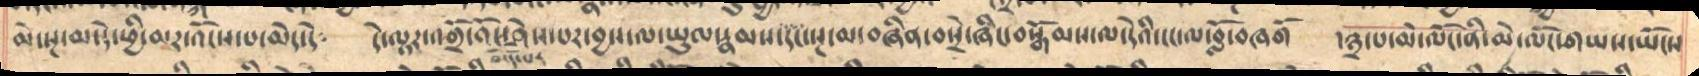མེ་སྔ་མ་དེ་ཕྱི་མར་འོངས་པ་མེད་དོ༴   དེ་ལྟར་འགྲོ་འོང་ཤེས་པར་བྱས་ལ་ཡུལ་རྣམས་དང་སྔ་མ་བཞིན་བསྲེ་ཞིང་བསྒོམས་ལ་དེའི་ངང་ལ་བློ་བཞགོ   །༣་པ་མེ་ལོང་ནི་མེ་ལོང་གཡས་ཡོངས
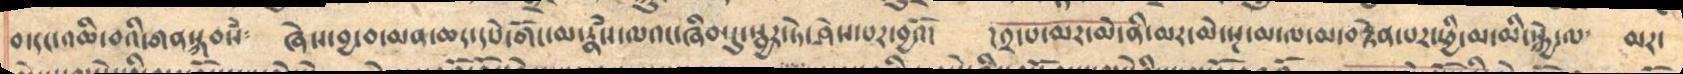བ་དང་འཆི་བའི་གནསྐབས༴ ཞེས་བྱ་བ་མན་ཆད་དཔེ་གོང་མ་རྣཾས་ལའང་ཞིབ་དུ་སྦྱར་ཏེ་ཤེས་པར་བྱའོ། །༢་པ་མར་མེ་ནི་སྔ་མ་ལ་མ་བརྟེན་པར་ཕྱི་མ་མི་སྐྱེ་ལ མར་
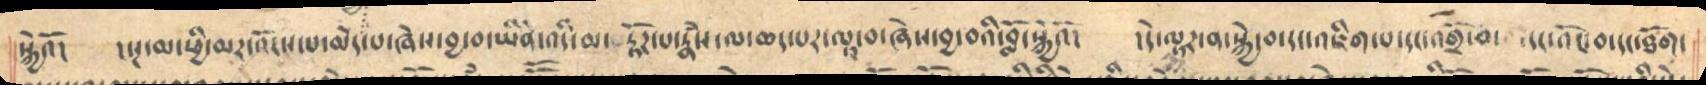སྐྱེའོ། །སྔ་མ་ཕྱི་མར་འོངས་པ་མེད་པ་ཞེས་བྱ་བ་ཡིན་འདི་མ་ རྟོཌ་པ་རྣཾས་ལ་ཆད་པར་ལྟ་བ་ཞེས་བྱ་བའི་བློ་སྐྱེའོ། །དེ་ལྟར་ན་སྐྱེ་བ་དང་འཇིག་པ་དང་འགྲོ་བ་ དང་འོང་བ་དང་ཐོག་
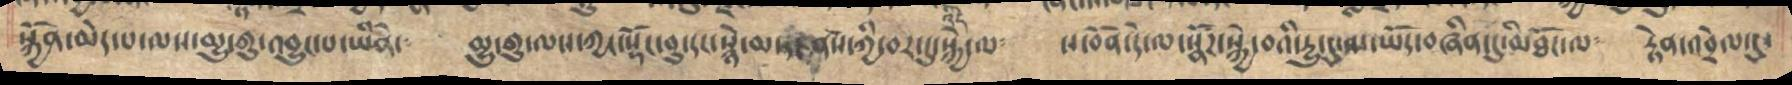སྐྱོན་མེད་པ་ལས་མྱུ་གུ་འབྱུང་བ་ཡིནོ།  མྱུ་གུ་ལས་ཀྱང་སྡོང་བུ་དང་སྙེ་མ་ནས་ཀྱི་བར་དུ་སྐྱེད་ལ༴   ས་བོན་དེ་ལ་སྣོར་སྐྱེ་བའི་དྱུ་དུ་མ་ཡོད་བཞིན་དུ་མིཐོང་ལ༴  རྟེན་འབྲེལ་དུ་
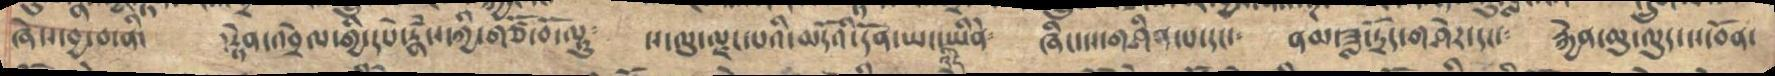ཞེས་བྱ་བ་ནི་   །རྟེན་འབྲེལ་གྱི་དཔེ་རྣཾས་ཀྱི་གཙོ་བོ་ལྟུ༴   ས་ལུ་ལྗང་པའི་མདོའི་དོན་ཏང་ཡིནེ༴   ཞིང་ས་གཤིན་པ་དང༴  ནམ་ཟླ་དྲོད་གཤེར་དང༴   རྐྱེན་ཆུ་ལུད་ས་བོན་
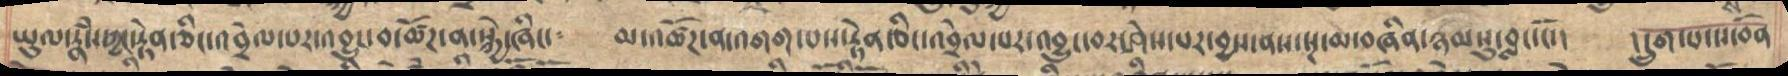ཡུལ་རྣཾས་ཀྱང་རྟེན་ཅིང་འབྲེལ་པར་འབྱུང་བ་ཚོཌ་ན་སྐྱེ་ཞིང་    མ་འཚོཌ་ན་འགག་པས་རྟེན་ཅིང་འབྲེལ་པར་འབྱུང་བར་ཤེས་པར་བྱས་ནས་སྔ་མ་བཞིན་ཉམསུ་བླང་ངོ་།   །དྲུག་པ་ས་བོན
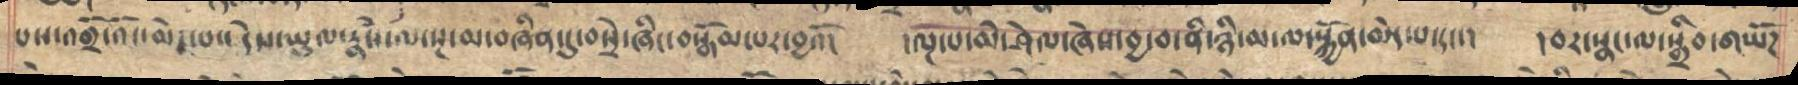པས་འགྲོ་འོང་མེད་པས་དེས་ཡུལ་རྣཾས་ལ་སྔ་མ་བཞིན་དུ་བསྲེ་ཞིང་བསྒོམ་པར་བྱའོ། །ལྔ་པ་མེ་ཤེལ་ཞེས་བྱ་བ་ནི་ཉི་མ་ལ་སྐྱོན་མེད་པ་དང་། །བར་སྣང་ལ་སྒྲིབ་གཡོཌ
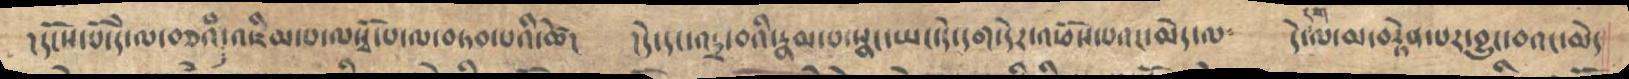།དངོས་པོ་དེ་ལ་བཅུའི་འཇིམ་པ་ལསྭོ་པ་ལ་བཏབ་པའི་ཚེ།   །དེ་དང་འདྲ་བའི་རྣམ་པ་སྣང་ཡང་དེ་དག་དེར་འཕོས་པའང་མེད་ལ༴   དེ་ལ་མ་བརྟེན་པར་བྱུང་བའང་མེད
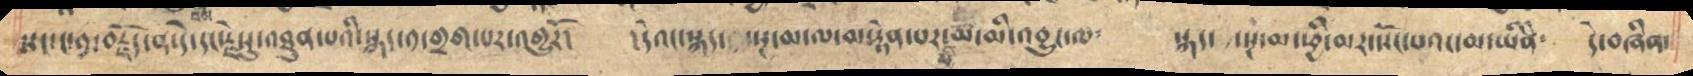སང་ང་༡་བརྗོད་ན་དེ་དང་རྗེས་འཐུན་པའི་སྐད་༡་གྲག་པར་འགྱུར།    །དེའང་སྐད་   སྔ་མ་ལ་མ་རྟེན་པར་མ་མི་འབྱུང་ལ༴   སྐད་   ་སྔ་མ་ཕྱི་མར་སོང་པའང་མ་ཡིནེ༴   དེ་བཞིན་
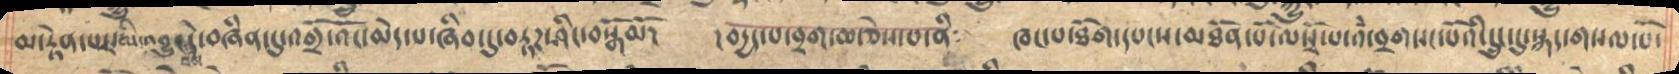མ་རྟེན་པར་མི་འབྱུང་བས་དེ་བཞིན་དུ་འགྲོ་འོང་མེད་པ་ཞིབ་དུ་བརྟར་ཤིང་བསྒོམ།     ། བདྱད་པ་བྲག་མ་ཅེས་པ་ནི༴   ཁང་པ་ཐོག་དཔངས་མཐོན་པོ་ལསྭོ་པ་འཾ་བྲག་དང་པོའི་དྲུང་དུ་སྐད་གསལ་པོ་
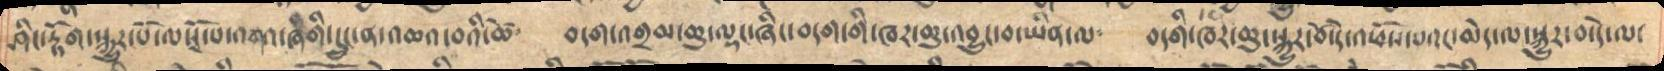ཤིང་རྟོག་སྐྱུར་པོ་ལསྭོ་པ་འགའ་ཞིགི་དྲུང་ན་འཆའ་བའི་ཚེ༴   བདག་འགྲམ་ཆུ་ལྡང་ཞིང་བདག་གི་ཁར་ཆུ་འབྱུང་བ་ཡིན་ལ༴  བདགི་ཁར་ཆུ་སྐྱུར་བོ་དེ་འཕོས་པའང་མེད་ལ་སྐྱུར་བ་དེ་ལ་
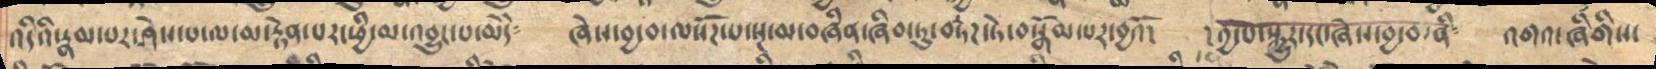འདིའི་རྣམ་པར་ཤེས་པ་ལ་མ་རྟེན་པར་ཕྱི་མ་འབྱུང་པ་མེདོ༴  ཞེས་བྱ་བ་ལསོཌ་པ་སྔ་མ་བཞིན་ཞིབ་ཏུ་བརྟཌ་ཏེ་བསྒོམ་པར་བྱའོ།  །བྱ་པསྐྱུར་དང་ཞེས་བྱ་བ་ནི༴  འགའ་ཞིགིས་
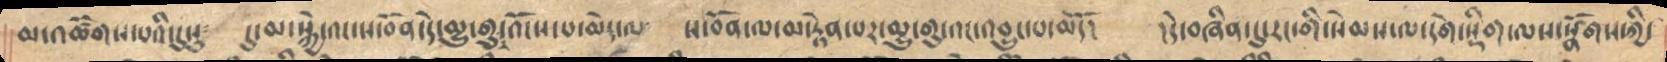མ་འཚོགས་པོ་དུསུ༴   དུ་མ་སྐྱེ་འང་ས་བོན་དེ་མྱུ་གུ་འོངས་པ་མེད་ལ༴   ས་བོན་ལ་མ་རྟེན་པར་མྱུ་གུ་འང་འབྱུང་པ་མོད།   །  དེ་བཞིན་དུ་རང་གི་སེམས་ལ་དགེ་སྡིག་ལས་སྣོགས་ཀྱི་
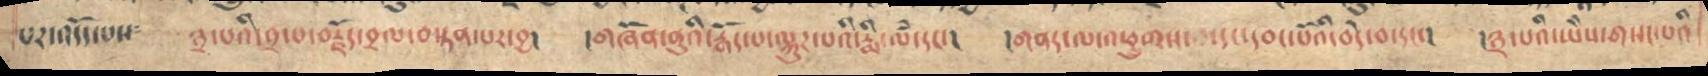པར་འདོད་པས༴  ༣་པའི་༢་པ་བརྗོད་བྲལ་བསྟན་པར་བྱ།  །གཞོན་ནུའི་རྒོད་པ་ལྐུར་པའི་རྨི་ལྃ་དང་།   །གནད་ལ་འཕྱུགས་པ་དང་དབང་པོའི་བདེ་བ་དང་།  །༣་པའི་ཡེེས་གསང་པའི་
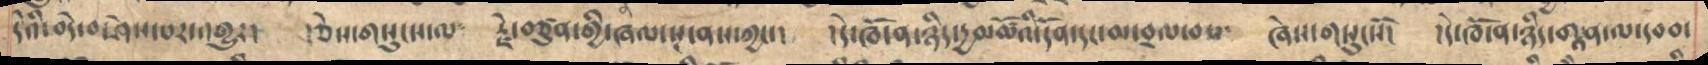དེའི་བདེ་བ་ཤེས་པར་འགྱུར།  །ཅེས་གསུངས་ལ༴  རྗེ་བཙུན་གྱི་ཞལ་སྔ་ནས་ཀྱང་༴   །  དེ་ཁོ་ན་ཉིད་དྱ་མཚོའི་དོན་དང་མ་བྲལ་བས༴    ཞེས་གསུངས་སོ།    །དེ་ཁོ་ན་ཉིད་གྰན་ལ་དབབ་
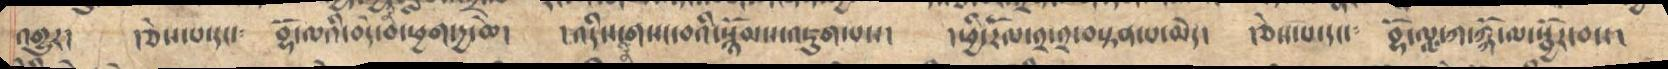འགྱུར།    །ཅེས་པ་དང༴   བྷོ་ལའི་བདེ་བ་ཕྱག་དྱ་ཆེ།   ། འདིས་གསང་བའི་སྙོམས་འཇུག་པས།   ། ཕྱི་རོལ་༢་༢་བསྟན་པ་མེད་   །ཅེས་པ་དང༴   བྷོ་ལླ་ཀ་ཀྐོ་ལ་སྦྱོར་བས།
